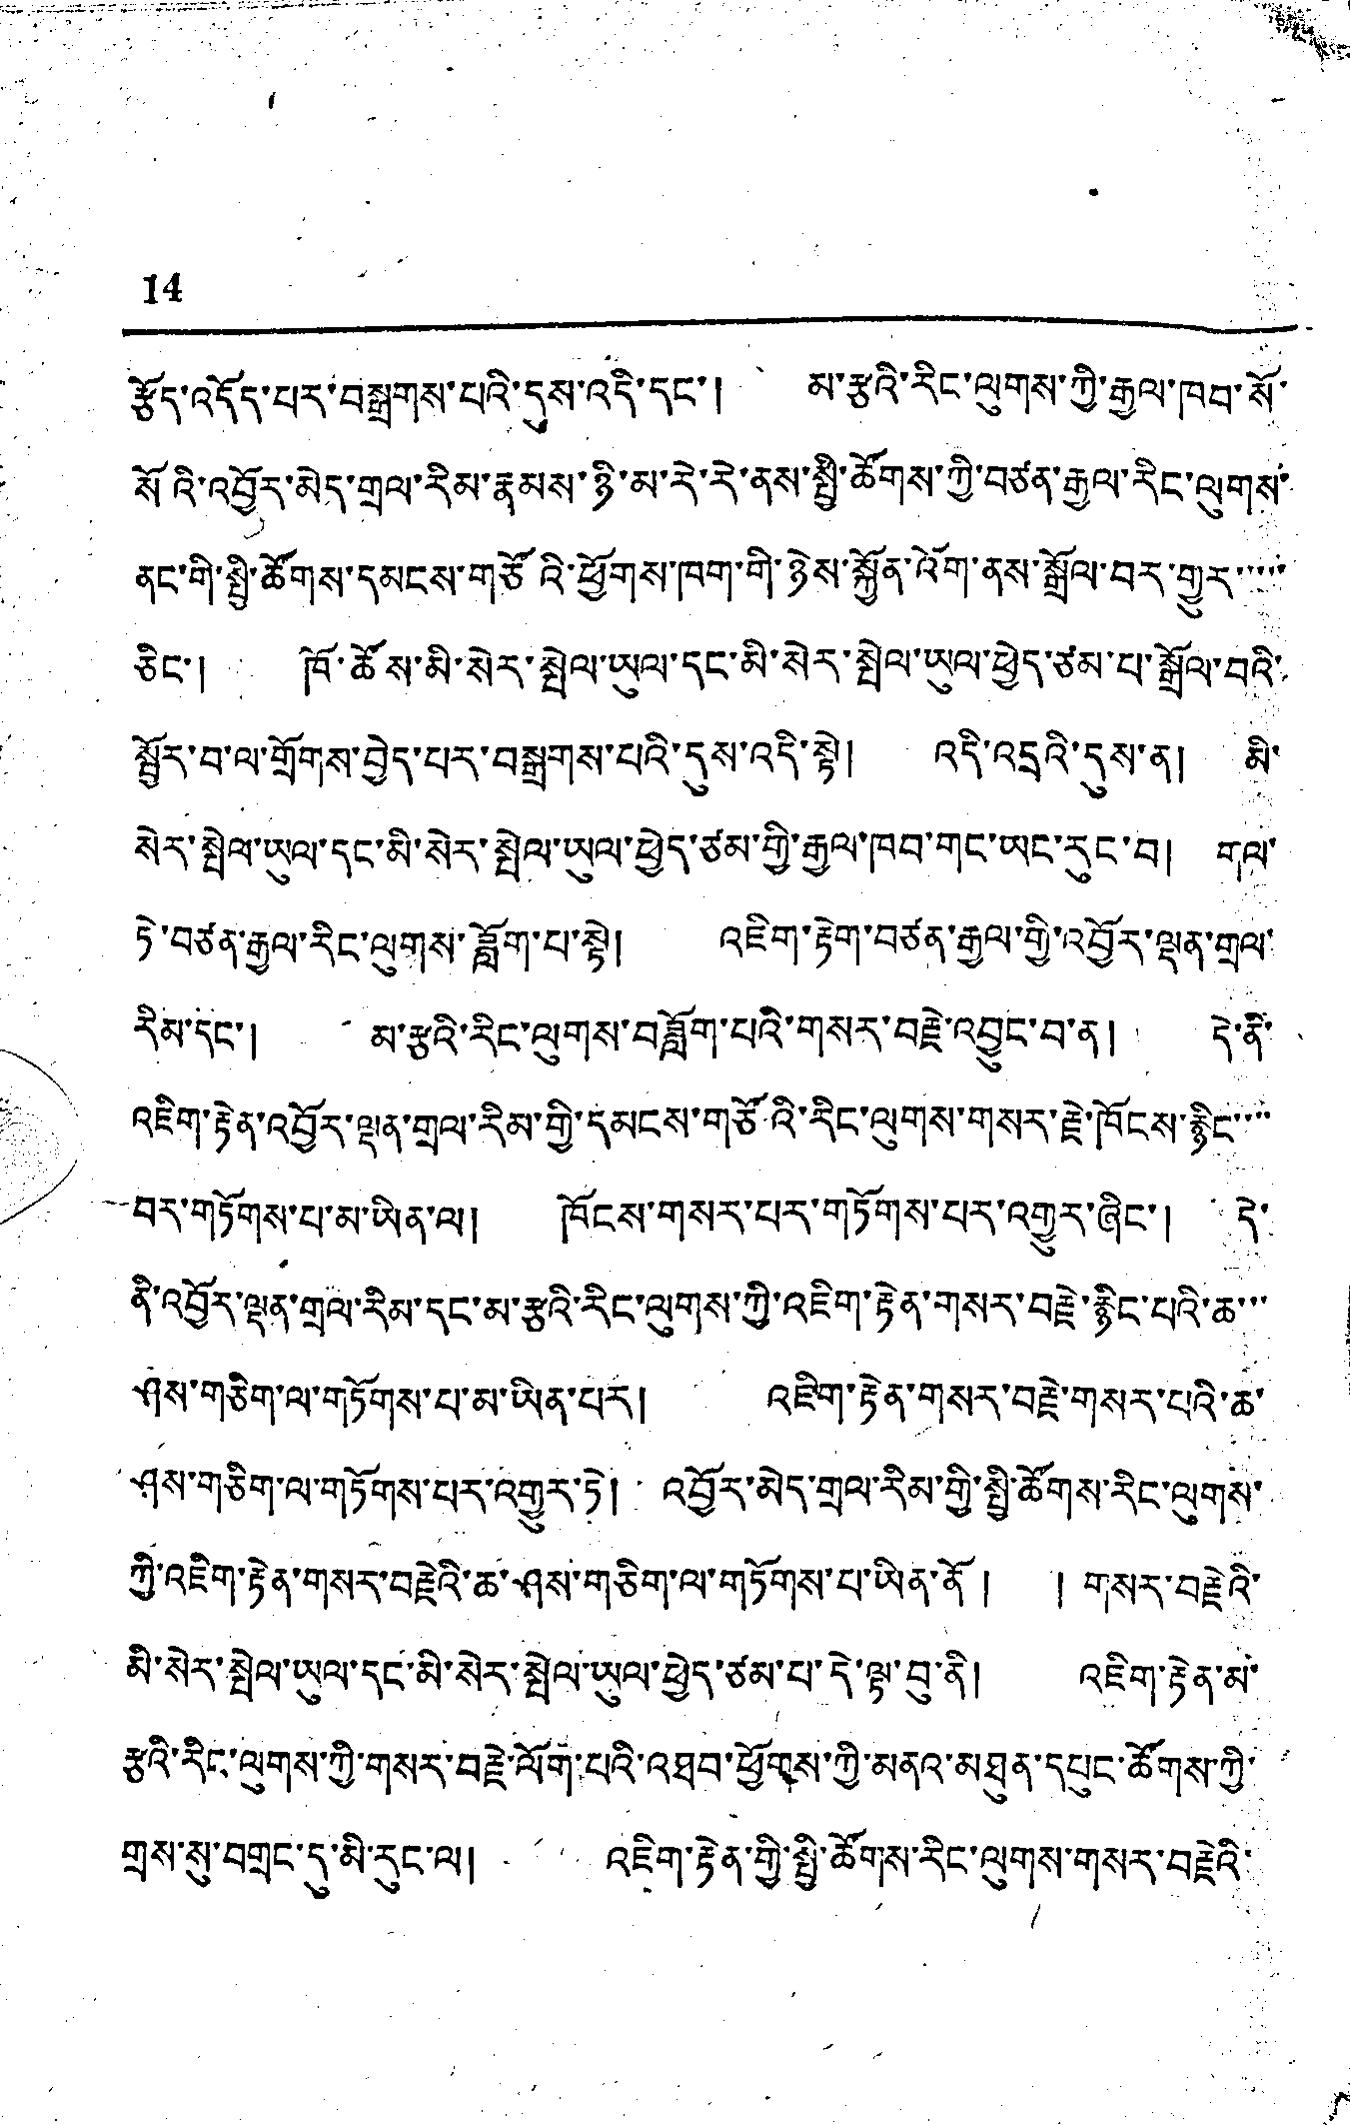14
རྩོད་འདོད་པར་བསྒྲགས་པའི་དུས་འདི་དང་། མ་རྩའི་རིང་ལུགས་ཀྱི་རྒྱལ་ཁབ་སོ་
སོའི་འབྱོར་མེད་གྲལ་རིམ་རྣམས་ཉི་མ་རེ་རེ་ནས་སྤྱི་ཚོགས་ཀྱི་བཙན་རྒྱལ་རིང་ལུགས་
ནང་གི་སྤྱི་ཚོགས་དམངས་གཙོའི་ཕྱོགས་ཧག་གི་ཉེས་སྐྱོན་འོག་ནས་སྒྲོལ་བར་གྱུར་་་་་
ཅིང་། ཁོ་ཚོས་མི་སེར་སྤེལ་ཡུལ་དང་མི་སེར་སྤེལ་ཡུལ་ཕྱེད་ཙམ་པ་སྒྲོལ་བའི་
སྦྱོར་བ་ལ་གྲོགས་བྱེད་པར་བསྒྲགས་པའི་དུས་འདི་སྟེ། འདི་འདྲའི་དུས་ན། མི་
སེར་སྤེལ་ཡུལ་དང་མི་སེར་སྤེལ་ཡུལ་ཕྱེད་ཙམ་གྱི་རྒྱལ་ཁབ་གང་ཡང་རུང་བ། གལ་
ཏེ་བཙན་རྒྱལ་རིང་ལུགས་ཟློག་པ་སྟེ། འཇིག་རྟེག་བཙན་རྒྱལ་གྱི་འབྱོར་ལྡན་གྲལ་
རིམ་དང་། མ་རྩའི་རིང་ལུགས་བཟློག་པའི་གསར་བརྗེ་འབྱུང་བ་ན། དེ་ནི་
འཇིག་རྟེན་འབྱོར་ལྡན་གྲ་རིམ་གྱི་དམངས་གཙོའི་རིང་ལུགས་གསར་རྗེ་ཁོངས་རྙིང་་་་
བར་གཏོགས་པ་མ་ཡིན་ལ། ཁོངས་གསར་པར་གཏོགས་པར་འགྱུར་ཞིང་། དེ་
ནི་འབྱོར་ལྡན་གྲལ་རིམ་དང་མ་རྩའི་རིང་ལུགས་ཀྱི་འཇིག་རྟེན་གསར་བརྗེ་རྙིང་པའི་ཆ་་་
ཤས་གཅིག་ལ་གཏོགས་པ་མ་ཡིན་པར། འཇིག་རྟེན་གསར་བརྗེ་གསར་པའི་ཆ་
ཤས་གཅིག་ལ་གཏོགས་པར་འགྱུར་ཏེ། འབྱོར་མེད་གྲལ་རིམ་གྱི་སྤྱི་ཚོགས་རིང་ལུགས་
ཀྱི་འཇིག་རྟེན་གསར་བརྗེའི་ཆ་ཤས་གཅིག་ལ་གཏོགས་པ་ཡིན་ནོ། གསར་བརྗེའི་
མི་སེར་སྤེལ་ཡུལ་དང་མི་སེར་སྤེལ་ཡུལ་ཕྱེད་ཙམ་པ་དེ་ལྟ་བུ་ནི། འཇིག་རྟེན་མ་
རྩའི་རིང་ལུགས་ཀྱི་གསར་བརྗེ་ལོག་པའི་འཐབ་ཕྱོགས་ཀྱི་མནའ་མཐུན་དཔུང་ཚོགས་ཀྱི་
གྲས་སུ་བགྲང་དུ་མི་རུང་ལ། འཇིག་རྟེན་གྱི་སྤྱི་ཚོགས་རིང་ལུགས་གསར་བརྗེའི་
